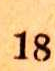18
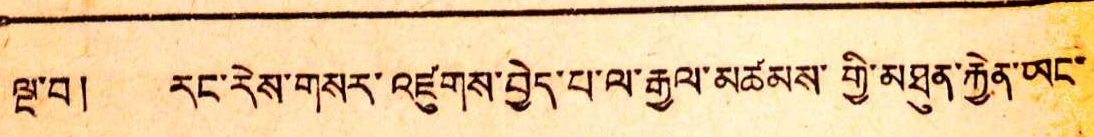ལྔ་བ ། རང་རེས་གསར་འཛུགས་བྱེད་པ་ལ་རྒྱལ་མཚམས་གྱི་མཐུན་རྐྱེན་ཡང་
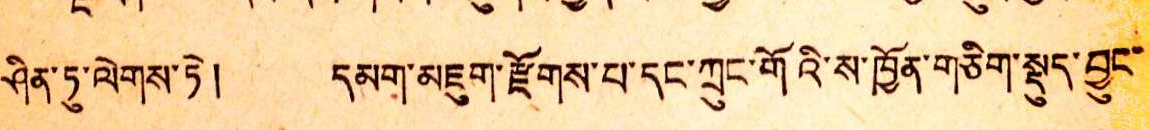ཤིན་ཏུ་ལེགས་ཏེ ། དམག་མཇུག་རྫོགས་པ་དནག་ཀྲུང་གོའི་ས་ཁྱོན་གཅིག་སྡུད་བྱུང་
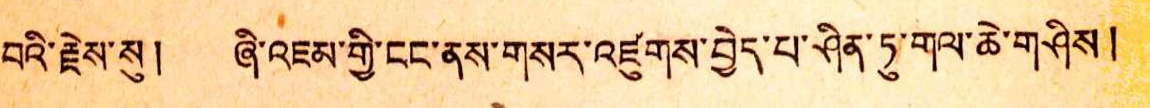བའི་རྗེས་སུ ། ཞི་འཇམ་གྱི་ངང་ནས་གསར་འཛུགས་བྱེད་པ་ཤིན་ཏུ་གལ་ཆེ་གཤིས།
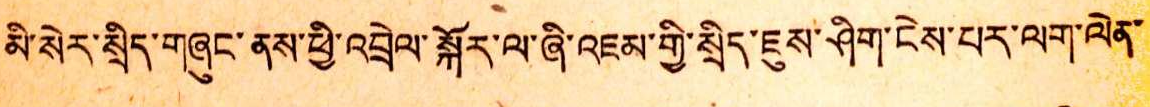མི་སར་སྲིད་གཞུང་ནས་ཕྱི་འབྲེལ་སྐོར་ལ་ཞི་འཇམ་གྱི་སྲིད་ཇུས་ཤིག་ངེས་པར་ལག་ལེན་
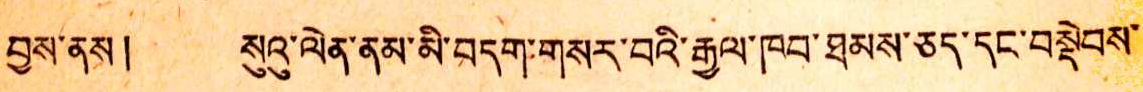བྱས་ནས ། སུའུ་ལེན་ནམ་མི་བདག་གསར་བའི་རྒྱལ་ཁབ་ཐམས་ཅད་དང་བསྡེབས་
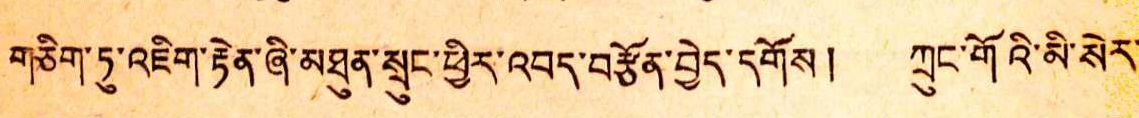གཅིག་ཏུ་འཇིག་རྟེན་ཞི་མཐུན་སྲུང་ཕྱིར་འབད་བརྩོན་བྱེད་འགོས ། ཀྲུང་གོའི་མི་སིར་
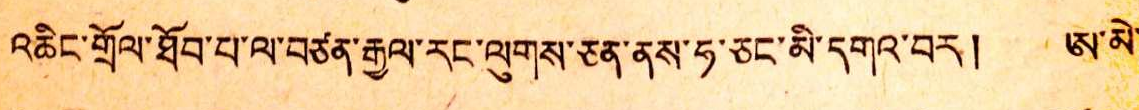འཆིང་གྲོལ་ཐོབ་པ་ལ་བཙན་རྒྱལ་རང་ལུགས་ཅན་ནས་ཧ་ཅང་མི་དགའ་བར ། ཨ་མེ་
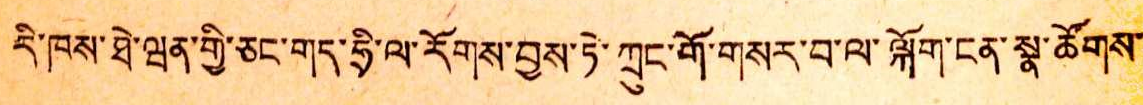རི་ཁས་ཐེ་ཝན་གྱི་ཅང་གད་ཧྲི་ལ་རོགས་བྱས་ཏེ་ཀྲུང་གོ་གསར་བ་ལ་ལྐོག་ངན་སྣ་ཚོགས་
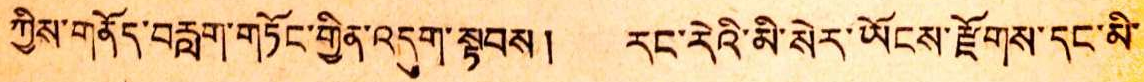ཀྱིས་གནོད་བརླག་གཏོང་གྱིན་འདུག་སྟབས ། རང་རེའི་མི་སེར་ཡོངས་རྫོགས་དང་མི་
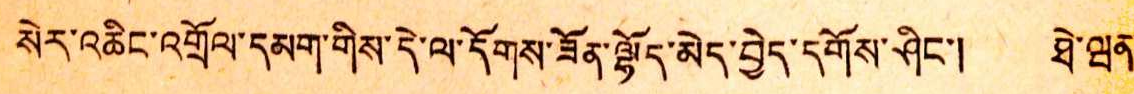སེར་འཆིང་འགྲོལ་འམག་གིས་དེ་ལ་དོགས་ཟོན་ལྷོད་མེད་བྱེད་དགོས་ཤིང་། ཐེ་ཝན་
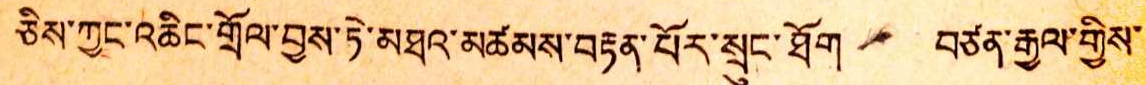ཅིས་ཀྱང་འཆིང་གྲོལ་བྱས་ཏེ་མཐའ་མཚམས་བརྟན་པོར་སྲུང་ཐོག བཙན་རྒྱལ་གྱིས་
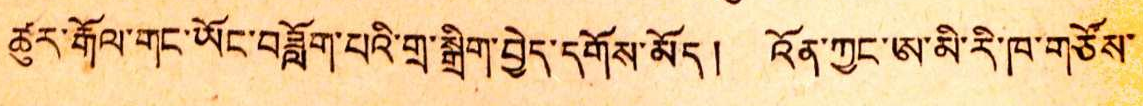ཚུར་རྒོལ་གང་ཡོང་བཟློག་པའི་གྲ་སྒྲིག་བྱེད་དགོས་མོད ། འོན་ཀྱང་ཨ་མི་རི་ཁ་གཙོས་
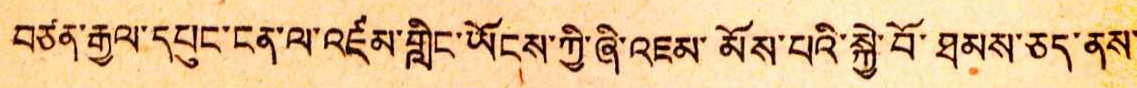བཙན་རྒྱལ་དཔུང་ངན་ལ་འཛམ་གླིང་ཡོངས་ཀྱི་ཞི་འཇམ་མོས་པའི་སྐྱེ་བོ་ཐམས་ཅད་ནས་
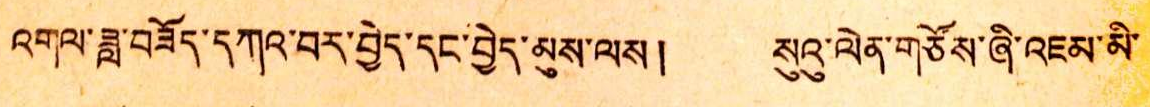འགལ་ཟླ་བཟོད་དཀའ་བར་བྱེད་དང་བྱེད་མུས་ལས ། སུའུ་ལེན་གཙོས་ཞི་འཇམ་མི་
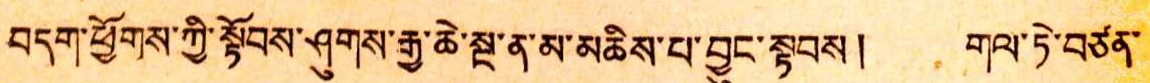བདག་ཕྱོགས་ཀྱི་སྟོབས་ཤུགས་རྒྱ་ཆེ་སྔ་ན་མ་མཆིས་པ་བྱུང་སྟབས ། གལ་ཏེ་བཙན་
